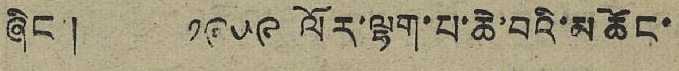ཞིང་། ༡༩༥༩ ལོར་ལྷག་པ་ཆེ་བའི་མཆོང་
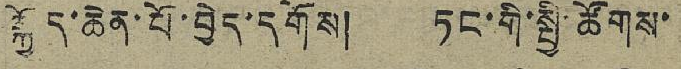སྐྱོད་ཆེན་པོ་བྱེད་དགོས། ཏང་གི་སྤྱི་ཚོགས་
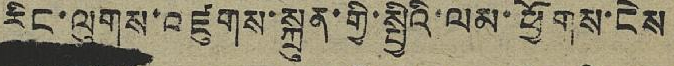རིང་ལུགས་འཛུགས་སྐྲུན་གྱི་སྤྱིའི་ལམ་ཕྱོགས་ངེས
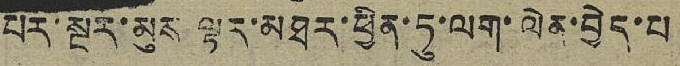པར་སྔར་མུས ལྟར་མཐར་ཕྱིན་ཏུ་ལག་ལེན་བྱེད་པ
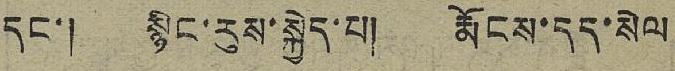དང་། སྙིང་རུས་སྐྱེད་པ། རྨོངས་དད་སེལ
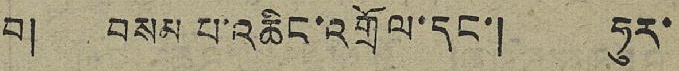བ། བསམ པ་འཆིང་འགྲོལ་དང་། ཧུར་
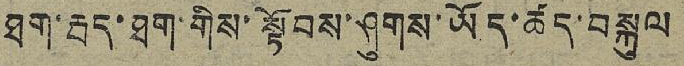ཐག་རྦད་ཐག་གིས་སྟོབས་ཤུགས་ཡོད་ཚད་བསྐུལ
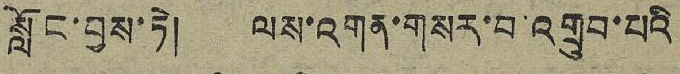སློང་བྱས་ཏེ། ལས་འགན་གསར་བ་འགྲུབ་པའི
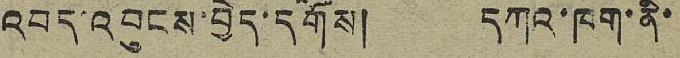འབད་འབུངས་བྱེད་དགོས། དཀའ་ཁག་ནི་
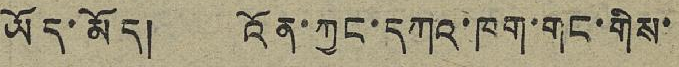ཡོད་མོད། འོན་ཀྱང་དཀའ་ཁག་གང་གིས་
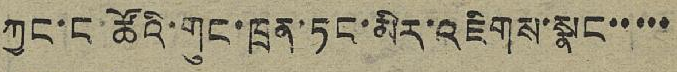ཀྱང་ང་ཚོའི་གུང་ཁྲན་ཏང་མིར་འཇིགས་སྣང་་་་་
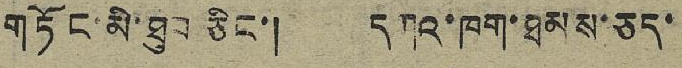གཏོང་མི་ཐུབ ཅིང་། དཀའ་ཁག་ཐམས་ཅད་
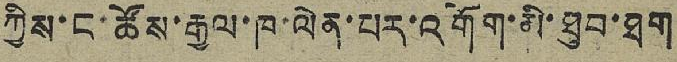ཀྱིས་ང་ཚོས་རྒྱལ་ཁ་ལེན་པར་འགོག་མི་ཐུབ་ཐག
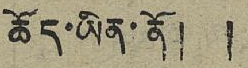ཆོད་ཡིན་ནོ། །
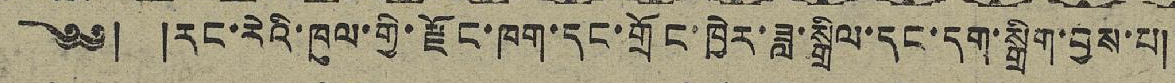༄༅། །རང་རེའི་ཁུལ་གྱི་རྫོང་ཁག་དང་གྲོང་ཁྱེར་ཟླ་སྒྲིལ་དང་དག་སྒྲིག་བྱས་པ།
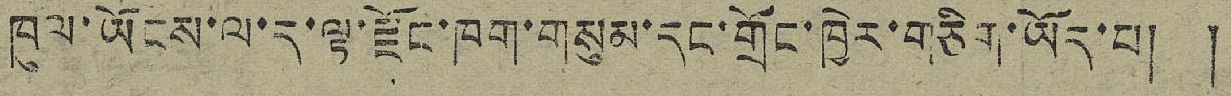ཁུལ་ཡོངས་ལ་ད་ལྟ་རྫོང་ཁག་གསུམ་དང་གྲོང་ཁྱེར་གཅིག་ཡོད་པ། །
